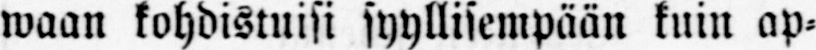waan kohdistuisi syyllisempään kuin ap-
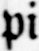pi
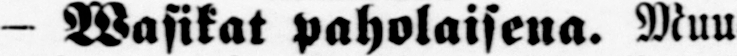- Wasikat paholaisena. Muu-
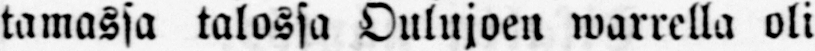tamassa talossa Oulujoen warrella oli
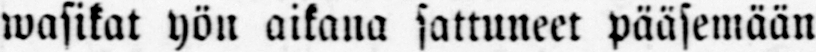wasikat yön aikana sattuneet pääsemään
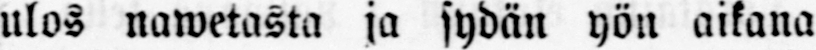ulos nawetasta ja sydän yön aikana
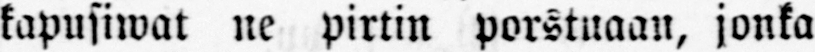kapusiwat ne pirtin porstuaan, jonka
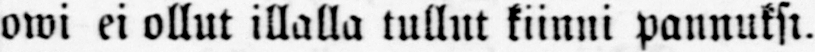owi ei ollut illalla tullut kiinni pannuksi.
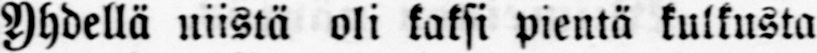Yhdellä niistä oli kaksi pientä kulkusta
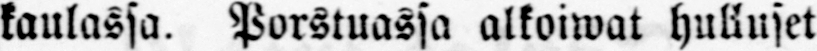kaulassa. Porstuassa alkoiwat hulluset
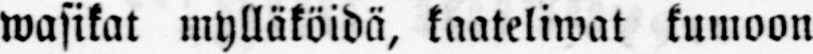wasikat mylläköidä, kaateliwat kumoon
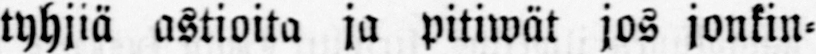tyhjiä astioita ja pitiwät jos jonkin-
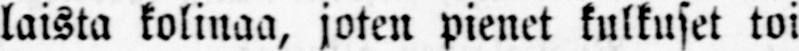laista kolinaa, joten pienet kulkuset toi-
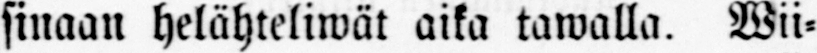sinaan helähteliwät aika tawalla. Wii-
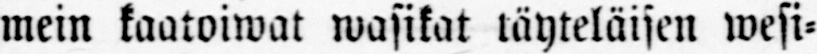mein kaatoiwat wasikat täyteläisen wesi-
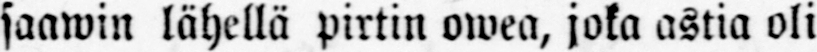saawin lähellä pirtin owea, joka astia oli
